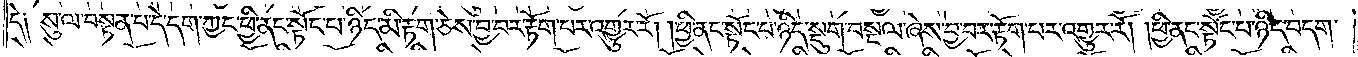དེ༑ སུ་ལ་བསྟན་པ་དེ་དག་ཀྱང་ཕྱི་ནང་སྟོང་པ་ཉིད་མི་རྟག་ཅེས་བྱ་བར་རྟོག་པར་འགྱུར་རོ། །ཕྱི་ནང་སྟོང་པ་ཉིད་སྡུག་བསྔལ་ཞེས་བྱ་བར་རྟོག་པར་འགྱུར་རོ། །ཕྱི་ནང་སྟོང་པ་ཉིད་བདག་
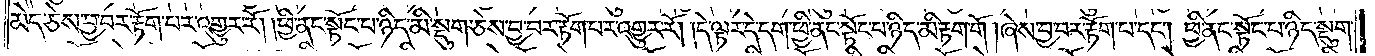མེད་ཅེས་བྱ་བར་རྟོག་པར་འགྱུར་རོ། །ཕྱི་ནང་སྟོང་པ་ཉིད་མི་སྡུག་ཅེས་བྱ་བར་རྟོག་པར་འགྱུར་རོ། །དེ་ལྟར་དེ་དག་ཕྱི་ནང་སྟོང་པ་ཉིད་མི་རྟག་གོ། ཞེས་བྱ་བར་རྟོག་པ་དང༌། ཕྱི་ནང་སྟོང་པ་ཉིད་སྡུག་
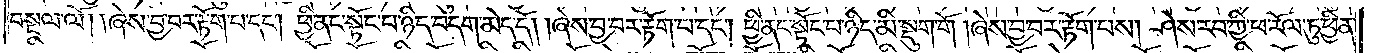བསྔལ་ལོ། །ཞེས་བྱ་བར་རྟོག་པ་དང༌། ཕྱི་ནང་སྟོང་པ་ཉིད་བདག་མེད་དོ། །ཞེས་བྱ་བར་རྟོག་པ་དང༌། ཕྱི་ནང་སྟོང་པ་ཉིད་མི་སྡུག་གོ། ཞེས་བྱ་བར་རྟོག་པས། ཤེས་རབ་ཀྱི་ཕ་རོལ་ཏུ་ཕྱིན་
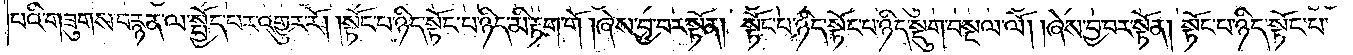པའི་གཟུགས་བརྙན་ལ་སྤྱོད་པར་འགྱུར་རོ། །སྟོང་པ་ཉིད་སྟོང་པ་ཉིད་མི་རྟག་གོ། ཞེས་བྱ་བར་སྟོན། སྟོང་པ་ཉིད་སྟོང་པ་ཉིད་སྡུག་བསྔལ་ལོ། །ཞེས་བྱ་བར་སྟོན། སྟོང་པ་ཉིད་སྟོང་པ་
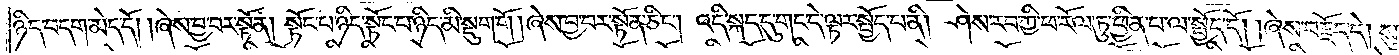ཉིད་བདག་མེད་དོ། །ཞེས་བྱ་བར་སྟོན། སྟོང་པ་ཉིད་སྟོང་པ་ཉིད་མི་སྡུག་གོ། ཞེས་བྱ་བར་སྟོན་ཅིང༌། འདི་སྐད་དུ་གང་དེ་ལྟར་སྤྱོད་པ་ནི། ཤེས་རབ་ཀྱི་ཕ་རོལ་ཏུ་ཕྱིན་པ་ལ་སྤྱོད་དོ། །ཞེས་བརྗོད་དེ། སུ་
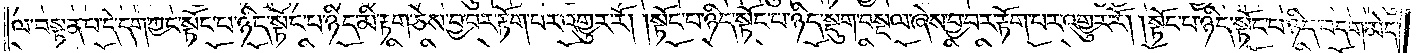ལ་བསྟན་པ་དེ་དག་ཀྱང་སྟོང་པ་ཉིད་སྟོང་པ་ཉིད་མི་རྟག་ཅེས་བྱ་བར་རྟོག་པར་འགྱུར་རོ། །སྟོང་པ་ཉིད་སྟོང་པ་ཉིད་སྡུག་བསྔལ་ཞེས་བྱ་བར་རྟོག་པར་འགྱུར་རོ། །སྟོང་པ་ཉིད་སྟོང་པ་ཉིད་བདག་མེད་
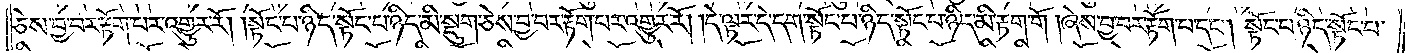ཅེས་བྱ་བར་རྟོག་པར་འགྱུར་རོ། །སྟོང་པ་ཉིད་སྟོང་པ་ཉིད་མི་སྡུག་ཅེས་བྱ་བར་རྟོག་པར་འགྱུར་རོ། །དེ་ལྟར་དེ་དག་སྟོང་པ་ཉིད་སྟོང་པ་ཉིད་མི་རྟག་གོ། ཞེས་བྱ་བར་རྟོག་པ་དང༌། སྟོང་པ་ཉིད་སྟོང་པ་
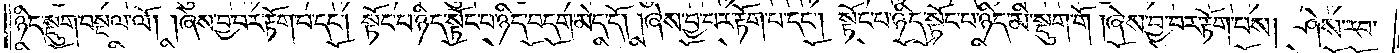ཉིད་སྡུག་བསྔལ་ལོ། །ཞེས་བྱ་བར་རྟོག་པ་དང༌། སྟོང་པ་ཉིད་སྟོང་པ་ཉིད་བདག་མེད་དོ། །ཞེས་བྱ་བར་རྟོག་པ་དང༌། སྟོང་པ་ཉིད་སྟོང་པ་ཉིད་མི་སྡུག་གོ། ཞེས་བྱ་བར་རྟོག་པས། ཤེས་རབ་
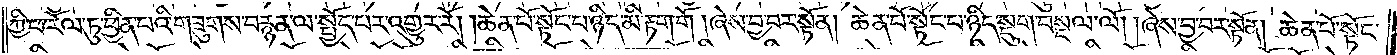ཀྱི་ཕ་རོལ་ཏུ་ཕྱིན་པའི་གཟུགས་བརྙན་ལ་སྤྱོད་པར་འགྱུར་རོ། །ཆེན་པོ་སྟོང་པ་ཉིད་མི་རྟག་གོ །ཞེས་བྱ་བར་སྟོན། ཆེན་པོ་སྟོང་པ་ཉིད་སྡུག་བསྔལ་ལོ། །ཞེས་བྱ་བར་སྟོན། ཆེན་པོ་སྟོང་
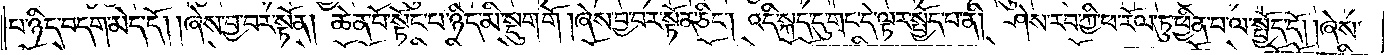པ་ཉིད་བདག་མེད་དོ། །ཞེས་བྱ་བར་སྟོན། ཆེན་པོ་སྟོང་པ་ཉིད་མི་སྡུག་གོ། ཞེས་བྱ་བར་སྟོན་ཅིང༌། འདི་སྐད་དུ་གང་དེ་ལྟར་སྤྱོད་པ་ནི། ཤེས་རབ་ཀྱི་ཕ་རོལ་ཏུ་ཕྱིན་པ་ལ་སྤྱོད་དོ། །ཞེས་
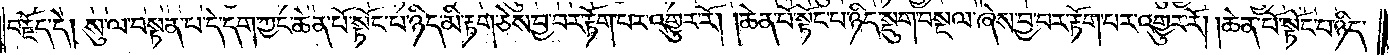བརྗོད་དེ། སུ་ལ་བསྟན་པ་དེ་དག་ཀྱང་ཆེན་པོ་སྟོང་པ་ཉིད་མི་རྟག་ཅེས་བྱ་བར་རྟོག་པར་འགྱུར་རོ། །ཆེན་པོ་སྟོང་པ་ཉིད་སྡུག་བསྔལ་ཞེས་བྱ་བར་རྟོག་པར་འགྱུར་རོ། །ཆེན་པོ་སྟོང་པ་ཉིད་
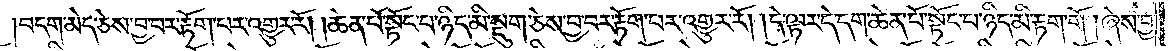བདག་མེད་ཅེས་བྱ་བར་རྟོག་པར་འགྱུར་རོ། །ཆེན་པོ་སྟོང་པ་ཉིད་མི་སྡུག་ཅེས་བྱ་བར་རྟོག་པར་འགྱུར་རོ། །དེ་ལྟར་དེ་དག་ཆེན་པོ་སྟོང་པ་ཉིད་མི་རྟག་གོ། ཞེས་བྱ་
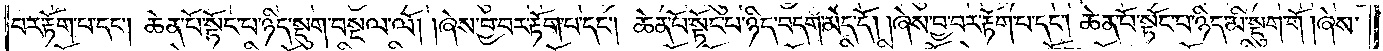བར་རྟོག་པ་དང༌། ཆེན་པོ་སྟོང་པ་ཉིད་སྡུག་བསྔལ་ལོ། །ཞེས་བྱ་བར་རྟོག་པ་དང༌། ཆེན་པོ་སྟོང་པ་ཉིད་བདག་མེད་དོ། །ཞེས་བྱ་བར་རྟོག་པ་དང༌། ཆེན་པོ་སྟོང་པ་ཉིད་མི་སྡུག་གོ། ཞེས་
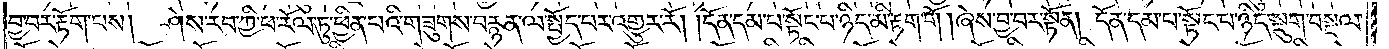བྱ་བར་རྟོག་པས། ཤེས་རབ་ཀྱི་ཕ་རོལ་ཏུ་ཕྱིན་པའི་གཟུགས་བརྙན་ལ་སྤྱོད་པར་འགྱུར་རོ། །དོན་དམ་པ་སྟོང་པ་ཉིད་མི་རྟག་གོ། ཞེས་བྱ་བར་སྟོན། དོན་དམ་པ་སྟོང་པ་ཉིད་སྡུག་བསྔལ་
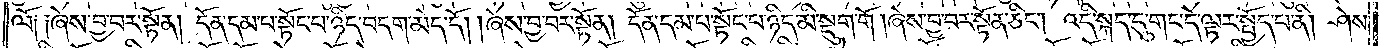ལོ༑ ༑ཞེས་བྱ་བར་སྟོན། དོན་དམ་པ་སྟོང་པ་ཉིད་བདག་མེད་དོ། །ཞེས་བྱ་བར་སྟོན། དོན་དམ་པ་སྟོང་པ་ཉིད་མི་སྡུག་གོ། ཞེས་བྱ་བར་སྟོན་ཅིང༌། འདི་སྐད་དུ་གང་དེ་ལྟར་སྤྱོད་པ་ནི། ཤེས་
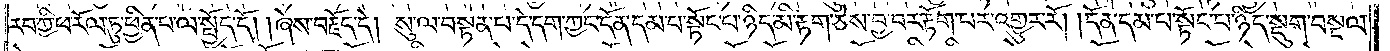རབ་ཀྱི་ཕ་རོལ་ཏུ་ཕྱིན་པ་ལ་སྤྱོད་དོ། །ཞེས་བརྗོད་དེ། སུ་ལ་བསྟན་པ་དེ་དག་ཀྱང་དོན་དམ་པ་སྟོང་པ་ཉིད་མི་རྟག་ཅེས་བྱ་བར་རྟོག་པར་འགྱུར་རོ། །དོན་དམ་པ་སྟོང་པ་ཉིད་སྡུག་བསྔལ་
